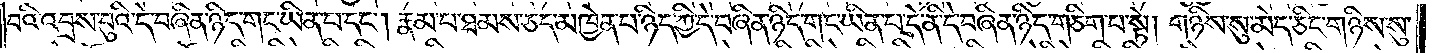བའི་འབྲས་བུའི་དེ་བཞིན་ཉིད་གང་ཡིན་པ་དང༌། རྣམ་པ་ཐམས་ཅད་མཁྱེན་པ་ཉིད་ཀྱི་དེ་བཞིན་ཉིད་གང་ཡིན་པ་དེ་ནི་དེ་བཞིན་ཉིད་གཅིག་པ་སྟེ། གཉིས་སུ་མེད་ཅིང་གཉིས་སུ་
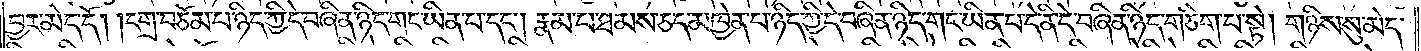བྱར་མེད་དོ། །དགྲ་བཅོམ་པ་ཉིད་ཀྱི་དེ་བཞིན་ཉིད་གང་ཡིན་པ་དང༌། རྣམ་པ་ཐམས་ཅད་མཁྱེན་པ་ཉིད་ཀྱི་དེ་བཞིན་ཉིད་གང་ཡིན་པ་དེ་ནི་དེ་བཞིན་ཉིད་གཅིག་པ་སྟེ། གཉིས་སུ་མེད་
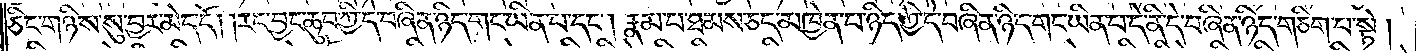ཅིང་གཉིས་སུ་བྱར་མེད་དོ། །རང་བྱང་ཆུབ་ཀྱི་དེ་བཞིན་ཉིད་གང་ཡིན་པ་དང༌། རྣམ་པ་ཐམས་ཅད་མཁྱེན་པ་ཉིད་ཀྱི་དེ་བཞིན་ཉིད་གང་ཡིན་པ་དེ་ནི་དེ་བཞིན་ཉིད་གཅིག་པ་སྟེ།
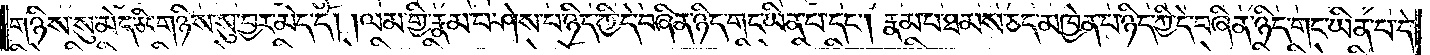གཉིས་སུ་མེད་ཅིང་གཉིས་སུ་བྱར་མེད་དོ། །ལམ་གྱི་རྣམ་པ་ཤེས་པ་ཉིད་ཀྱི་དེ་བཞིན་ཉིད་གང་ཡིན་པ་དང༌། རྣམ་པ་ཐམས་ཅད་མཁྱེན་པ་ཉིད་ཀྱི་དེ་བཞིན་ཉིད་གང་ཡིན་པ་དེ་
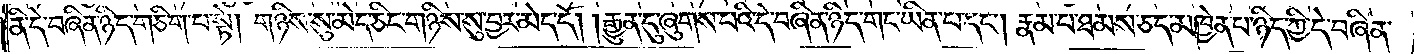ནི་དེ་བཞིན་ཉིད་གཅིག་པ་སྟེ། གཉིས་སུ་མེད་ཅིང་གཉིས་སུ་བྱར་མེད་དོ། །རྒྱུན་དུ་ཞུགས་པའི་དེ་བཞིན་ཉིད་གང་ཡིན་པ་དང༌། རྣམ་པ་ཐམས་ཅད་མཁྱེན་པ་ཉིད་ཀྱི་དེ་བཞིན་
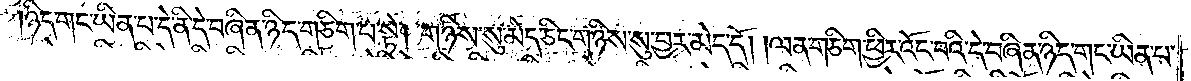ཉིད་གང་ཡིན་པ་དེ་ནི་དེ་བཞིན་ཉིད་གཅིག་པ་སྟེ། གཉིས་སུ་མེད་ཅིང་གཉིས་སུ་བྱར་མེད་དོ། །ལན་གཅིག་ཕྱིར་འོང་བའི་དེ་བཞིན་ཉིད་གང་ཡིན་པ་
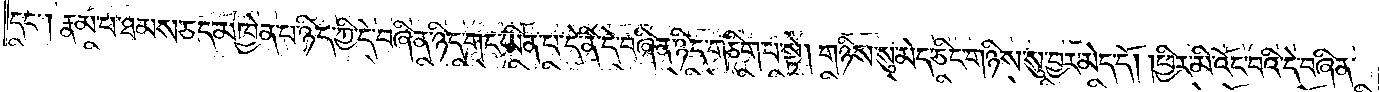དང༌། རྣམ་པ་ཐམས་ཅད་མཁྱེན་པ་ཉིད་ཀྱི་དེ་བཞིན་ཉིད་གང་ཡིན་པ་དེ་ནི་དེ་བཞིན་ཉིད་གཅིག་པ་སྟེ། གཉིས་སུ་མེད་ཅིང་གཉིས་སུ་བྱར་མེད་དོ། །ཕྱིར་མི་འོང་བའི་དེ་བཞིན་
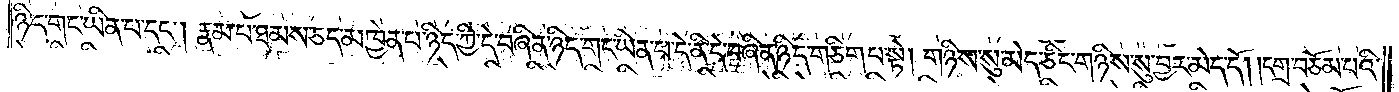ཉིད་གང་ཡིན་པ་དང༌། རྣམ་པ་ཐམས་ཅད་མཁྱེན་པ་ཉིད་ཀྱི་དེ་བཞིན་ཉིད་གང་ཡིན་པ་དེ་ནི་དེ་བཞིན་ཉིད་གཅིག་པ་སྟེ། གཉིས་སུ་མེད་ཅིང་གཉིས་སུ་བྱར་མེད་དོ། །དགྲ་བཅོམ་པའི་
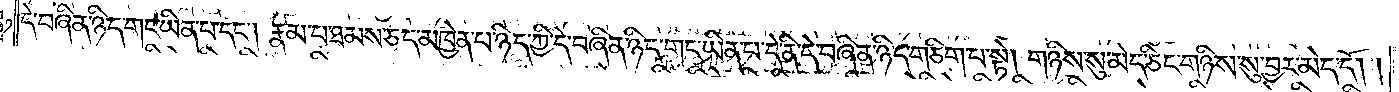དེ་བཞིན་ཉིད་གང་ཡིན་པ་དང༌། རྣམ་པ་ཐམས་ཅད་མཁྱེན་པ་ཉིད་ཀྱི་དེ་བཞིན་ཉིད་གང་ཡིན་པ་དེ་ནི་དེ་བཞིན་ཉིད་གཅིག་པ་སྟེ། གཉིས་སུ་མེད་ཅིང་གཉིས་སུ་བྱར་མེད་དོ། །
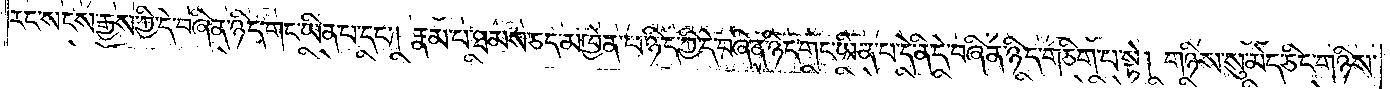རང་སངས་རྒྱས་ཀྱི་དེ་བཞིན་ཉིད་གང་ཡིན་པ་དང༌། རྣམ་པ་ཐམས་ཅད་མཁྱེན་པ་ཉིད་ཀྱི་དེ་བཞིན་ཉིད་གང་ཡིན་པ་དེ་ནི་དེ་བཞིན་ཉིད་གཅིག་པ་སྟེ། གཉིས་སུ་མེད་ཅིང་གཉིས་
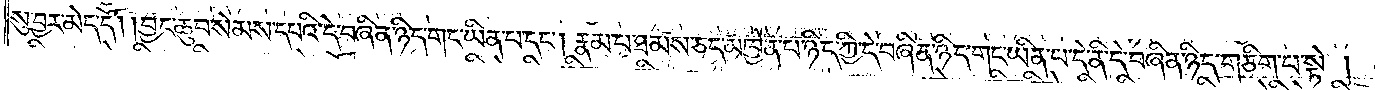སུ་བྱར་མེད་དོ། །བྱང་ཆུབ་སེམས་དཔའི་དེ་བཞིན་ཉིད་གང་ཡིན་པ་དང༌། རྣམ་པ་ཐམས་ཅད་མཁྱེན་པ་ཉིད་ཀྱི་དེ་བཞིན་ཉིད་གང་ཡིན་པ་དེ་ནི་དེ་བཞིན་ཉིད་གཅིག་པ་སྟེ།
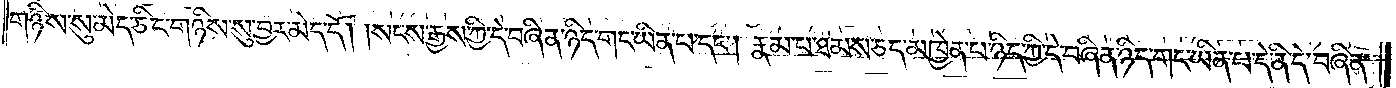གཉིས་སུ་མེད་ཅིང་གཉིས་སུ་བྱར་མེད་དོ། །སངས་རྒྱས་ཀྱི་དེ་བཞིན་ཉིད་གང་ཡིན་པ་དང༌། རྣམ་པ་ཐམས་ཅད་མཁྱེན་པ་ཉིད་ཀྱི་དེ་བཞིན་ཉིད་གང་ཡིན་པ་དེ་ནི་དེ་བཞིན་
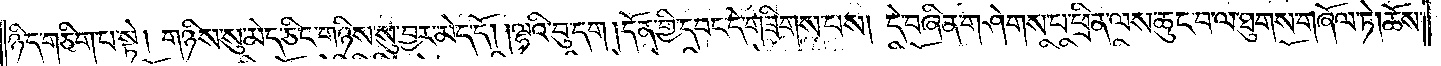ཉིད་གཅིག་པ་སྟེ། གཉིས་སུ་མེད་ཅིང་གཉིས་སུ་བྱར་མེད་དོ། །ལྷའི་བུ་དག །དོན་གྱི་དབང་དེ་གཟིགས་པས། དེ་བཞིན་གཤེགས་པ་ཕྲིན་ལས་ཆུང་བ་ལ་ཐུགས་གཞོལ་ཏེ། ཆོས་
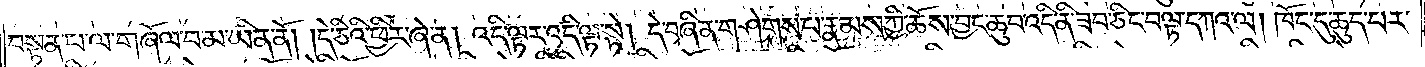བསྟན་པ་ལ་གཞོལ་བ་མ་ཡིན་ནོ། །དེ་ཅིའི་ཕྱིར་ཞེ་ན། འདི་ལྟར་འདི་ལྟ་སྟེ། དེ་བཞིན་གཤེགས་པ་རྣམས་ཀྱི་ཆོས་བྱང་ཆུབ་འདི་ནི་ཟབ་ཅིང་བལྟ་དཀའ་ལ། ཁོང་དུ་ཆུད་པར་
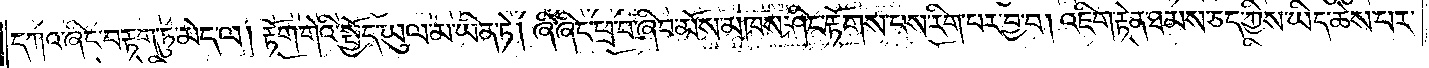དཀའ་ཞིང་བརྟག་ཏུ་མེད་ལ། རྟོག་གེའི་སྤྱོད་ཡུལ་མ་ཡིན་ཏེ། ཞི་ཞིང་ཕྲ་བ་ཞིབ་མོས་མཁས་ཤིང་རྟོགས་པས་རིག་པར་བྱ་བ། འཇིག་རྟེན་ཐམས་ཅད་ཀྱིས་ཡིད་ཆེས་པར་
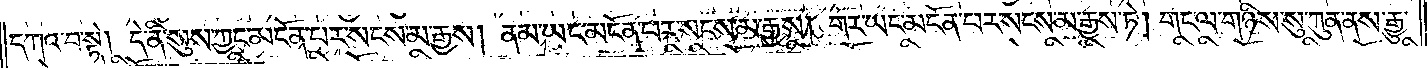དཀའ་བ་སྟེ། དེ་ནི་སུས་ཀྱང་མངོན་པར་སངས་མ་རྒྱས། ནམ་ཡང་མངོན་པར་སངས་མ་རྒྱས། གར་ཡང་མངོན་པར་སངས་མ་རྒྱས་ཏེ། གང་ལ་གཉིས་སུ་ཀུན་ནས་རྒྱུ་
